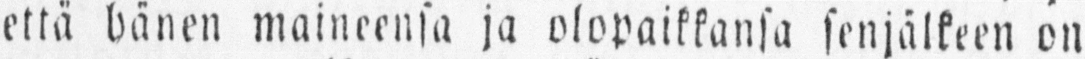että bänen maineensa ja olopaikkansa senjälkeen on
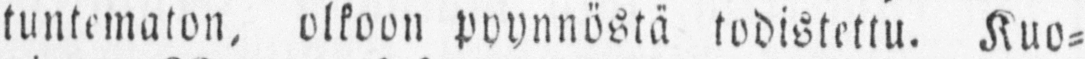tuntematon, olkoon pyynnöstä todislettu. Kuo-
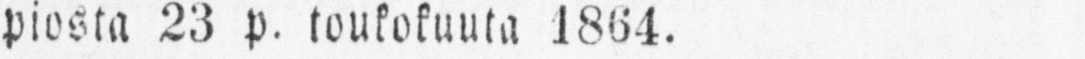piosta 23 p. toukokuuta 1864.
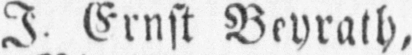J. Ernst Beyrath,
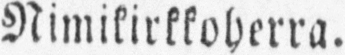Nimikirkkoherra.
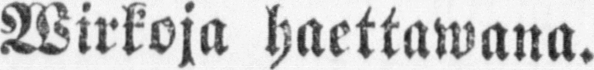Wirkoja haettawana.
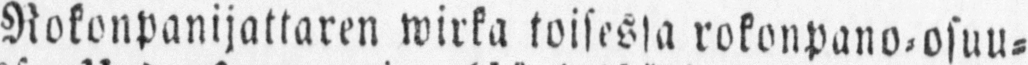Rokonpanijattaren wirka toisessa rokonpano-osuu-
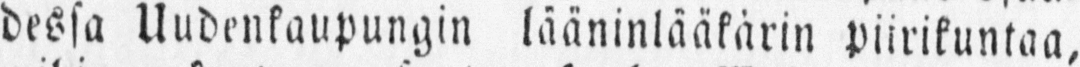dessa Uudenkaupungin lääninlääkärin piirikuntaa,
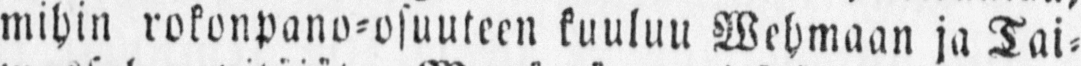mihin rokonpano-osuuteen kuuluu Wehmaan ja Tai-
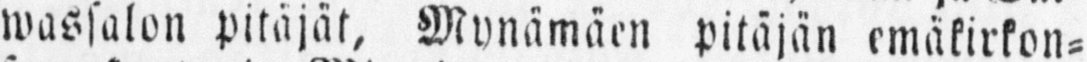wassalon pitäjät, Mynämäen pitäjän emäkirkon-
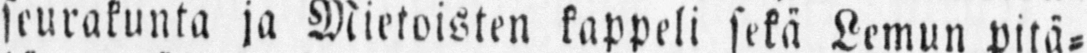seurakunta ja Mietoisten kappeli sekä Lamun pitä-
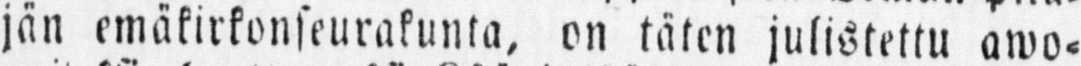jän emäkirkonseurakunta, on täten julistettu awo-
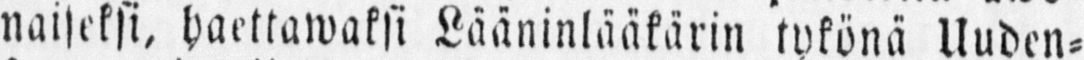naiseksi, haettawaksi Lääninlääkärin tykönä Uuden-
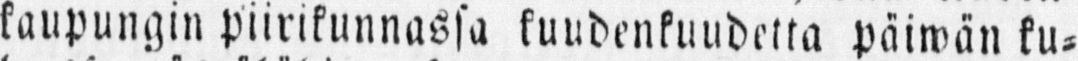kaupungin piirikunnassa kuudenkuudetta päiwän ku-
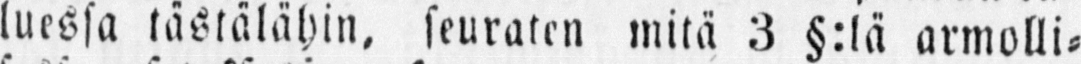luessa tästälähin, seuraten mitä 3 §:lä armolli-
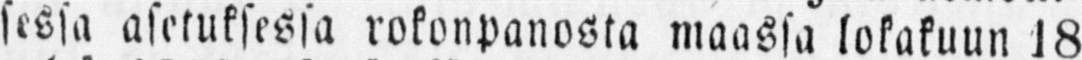sessa asetuksessa rokonpanosta maassa lokakuun 18
